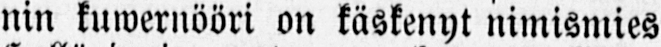nin kuwernööri on käskenyt nimismies
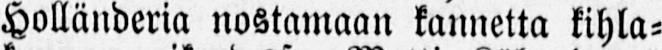Holländeria nostamaan kannetta kihla-
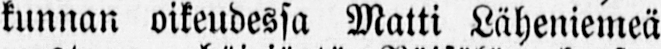kunnan oikeudessa Matti Läheniemeä
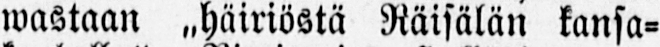wastaan ˶häiriöstä Räisälän kansa-
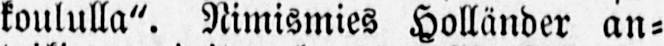koululla". Nimismies Holländer an-
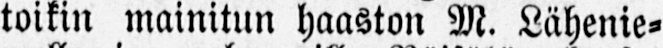toikin mainitun haastan M. Lähenie-
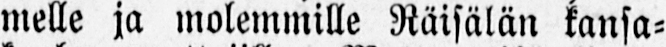melle ja molemmille Räisälän kansa-
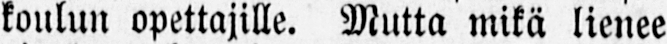koulun opettajille. Mutta mikä lienee
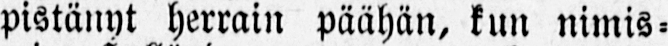pistänyt herrain päähän, kun nimis-
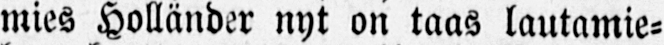mies Holländer nyt on taas lautamie-
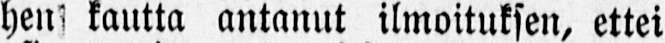hen; kautta antanut ilmoituksen, ettei
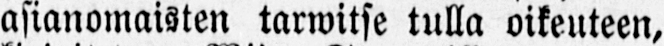asianomaisten tarwitse tulla oikeuteen,
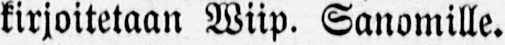kirjoitetaan Wiip. Sanomille.
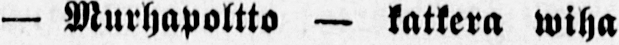— Murhapoltto — katkera wiha
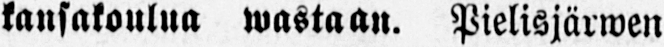kausakoulua wastaan. Pielisjärwen
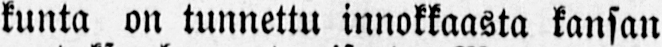kunta on tunnettu innokkaasta kansan
